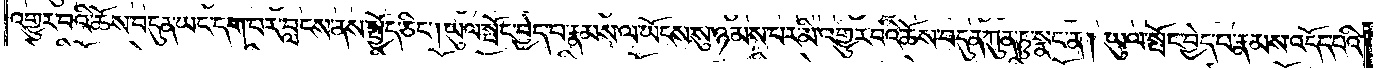འགྱུར་བའི་ཆོས་བདུན་ཡང་དག་པར་བླངས་ནས་སྤྱོད་ཅིང༌། ཡུལ་སྤོང་བྱེད་པ་རྣམས་ལ་ཡོངས་སུ་ཉམ་པར་མི་འགྱུར་བའི་ཆོས་བདུན་ཀུན་ཏུ་སྣང་ན། ཡུལ་སྤོང་བྱེད་པ་རྣམས་འདོད་པའི་
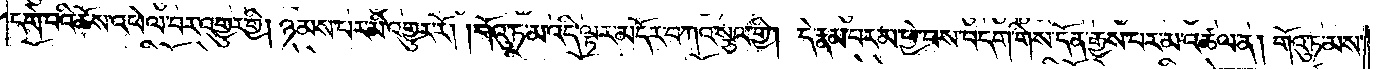དགེ་བའི་ཆོས་འཕེལ་བར་འགྱུར་གྱི། ཉམས་པར་མི་འགྱུར་རོ། །གོའུ་ཏ་མ་འདི་ལྟར་མདོར་བཀའ་སྩལ་གྱི། དེ་རྣམ་པར་མ་ཕྱེ་བས་བདག་གིས་དོན་རྒྱས་པར་མ་འཚལ་ན། གོའུ་ཏ་མས་
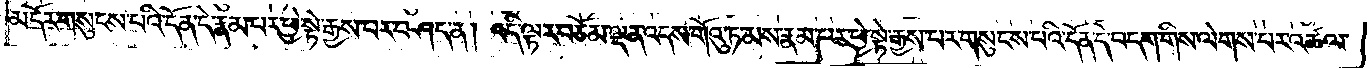མདོར་གསུངས་པའི་དོན་དེ་རྣམ་པར་ཕྱེ་སྟེ་རྒྱས་པར་བཤད་ན། འདི་ལྟར་བཅོམ་ལྡན་འདས་གོའུ་ཏ་མས་རྣམ་པར་ཕྱེ་སྟེ་རྒྱས་པར་གསུངས་པའི་དོན་དེ་བདག་གིས་ལེགས་པར་འཚལ་
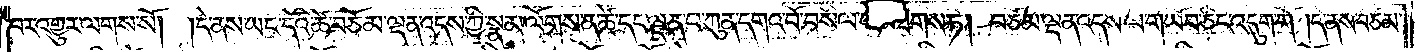པར་འགྱུར་ལགས་སོ། །དེ་ནས་ཡང་དེའི་ཚེ་བཅོམ་ལྡན་འདས་ཀྱི་སྣམ་ལོགས་ན་ཚེ་དང་ལྡན་པ་ཀུན་དགའ་བོ་བསིལ་(ཡབ་ཐོགས་)ཏེ། བཅོམ་ལྡན་འདས་ལ་གཡོབ་ཅིང་འདུག་གོ །དེ་ནས་བཅོམ་
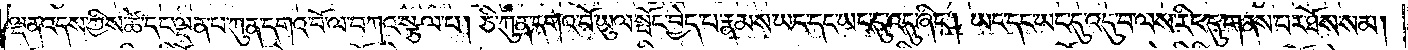ལྡན་འདས་ཀྱིས་ཚེ་དང་ལྡན་པ་ཀུན་དགའ་བོ་ལ་བཀའ་སྩལ་པ། ཅི་ཀུན་དགའ་བོ་ཡུལ་སྤོང་བྱེད་པ་རྣམས་ཡང་དང་ཡང་དུ་འདུ་ཞིང༌། ཡང་དང་ཡང་དུ་འདུ་བ་ལས་རིང་དུ་གནས་པར་ཐོས་སམ།
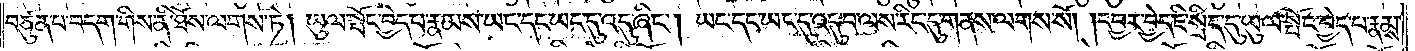བཙུན་པ་བདག་གིས་ནི་ཐོས་ལགས་ཏེ། ཡུལ་སྤོང་བྱེད་པ་རྣམས་ཡང་དང་ཡང་དུ་འདུ་ཞིང༌། ཡང་དང་ཡང་དུ་འདུ་བ་ལས་རིང་དུ་གནས་ལགས་སོ། །དབྱར་བྱེད་ཇི་སྲིད་དུ་ཡུལ་སྤོང་བྱེད་པ་རྣམས་
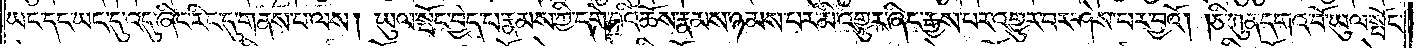ཡང་དང་ཡང་དུ་འདུ་ཞིང་རིང་དུ་གནས་པ་ལས། ཡུལ་སྤོང་བྱེད་པ་རྣམས་ཀྱི་དགེ་བའི་ཆོས་རྣམས་ཉམས་པར་མི་འགྱུར་ཞིང་རྒྱས་པར་འགྱུར་པར་ཤེས་པར་བྱའོ། །ཅི་ཀུན་དགའ་བོ་ཡུལ་སྤོང་
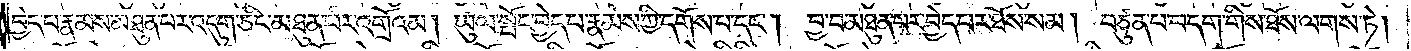བྱེད་པ་རྣམས་མཐུན་པར་འདུག་ཅིང་མཐུན་པར་འགྲོའམ། ཡུལ་སྤོང་བྱེད་པ་རྣམས་ཀྱི་དགོས་པ་དང༌། བྱ་བ་མཐུན་པར་བྱེད་པར་ཐོས་སམ། བཙུན་པ་བདག་གིས་ཐོས་ལགས་ཏེ།
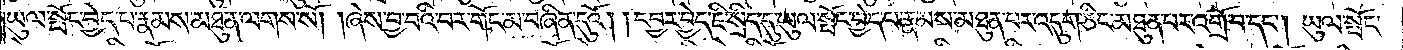ཡུལ་སྤོང་བྱེད་པ་རྣམས་མཐུན་ལགས་སོ། །ཞེས་བྱ་བའི་བར་གོང་མ་བཞིན་དུའོ། །དབྱར་བྱེད་ཇི་སྲིད་དུ་ཡུལ་སྤོང་བྱེད་པ་རྣམས་མཐུན་པར་འདུག་ཅིང་མཐུན་པར་འགྲོ་བ་དང༌། ཡུལ་སྤོང་
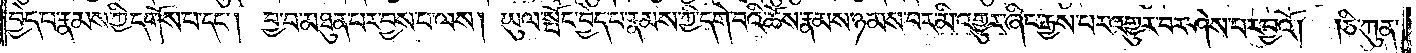བྱེད་པ་རྣམས་ཀྱི་དགོས་པ་དང༌། བྱ་བ་མཐུན་པར་བྱས་པ་ལས། ཡུལ་སྤོང་བྱེད་པ་རྣམས་ཀྱི་དགེ་བའི་ཆོས་རྣམས་ཉམས་པར་མི་འགྱུར་ཞིང་རྒྱས་པར་འགྱུར་བར་ཤེས་པར་བྱའོ། །ཅི་ཀུན་
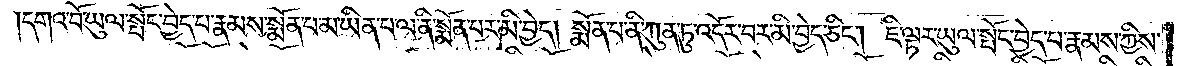དགའ་བོ་ཡུལ་སྤོང་བྱེད་པ་རྣམས་སྨོན་པ་མ་ཡིན་པ་ལ་ནི་སྨོན་པར་མི་བྱེད། སྨོན་པ་ནི་ཀུན་ཏུ་འདོར་བར་མི་བྱེད་ཅིང༌། ཇི་ལྟར་ཡུལ་སྤོང་བྱེད་པ་རྣམས་ཀྱིས་
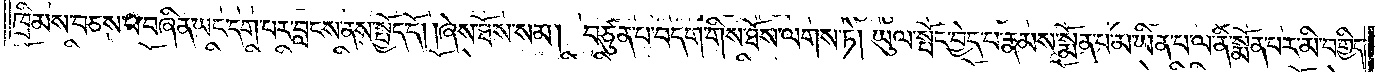ཁྲིམས་བཅས་པ་བཞིན་ཡང་དག་པར་བླངས་ནས་སྤྱོད་དོ། །ཞེས་ཐོས་སམ། བཙུན་པ་བདག་གིས་ཐོས་ལགས་ཏེ། ཡུལ་སྤོང་བྱེད་པ་རྣམས་སྨོན་པ་མ་ཡིན་པ་ལ་ནི་སྨོན་པར་མི་བགྱིད་
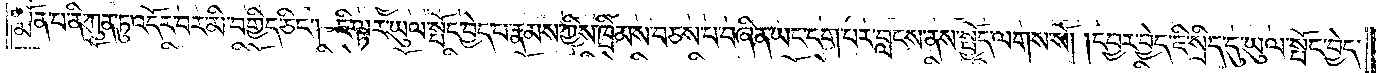སྨོན་པ་ནི་ཀུན་ཏུ་འདོར་བར་མི་བགྱིད་ཅིང༌། ཇི་ལྟར་ཡུལ་སྤོང་བྱེད་པ་རྣམས་ཀྱིས་ཁྲིམས་བཅས་པ་བཞིན་ཡང་དག་པར་བླངས་ནས་སྤྱོད་ལགས་སོ། །དབྱར་བྱེད་ཇི་སྲིད་དུ་ཡུལ་སྤོང་བྱེད་
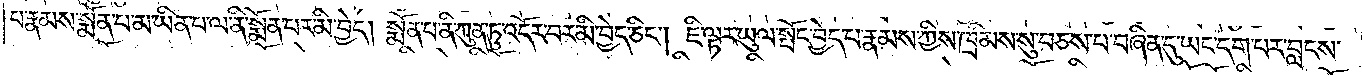པ་རྣམས་སྨོན་པ་མ་ཡིན་པ་ལ་ནི་སྨོན་པར་མི་བྱེད། སྨོན་པ་ནི་ཀུན་ཏུ་འདོར་བར་མི་བྱེད་ཅིང༌། ཇི་ལྟར་ཡུལ་སྤོང་བྱེད་པ་རྣམས་ཀྱིས་ཁྲིམས་སུ་བཅས་པ་བཞིན་དུ་ཡང་དག་པར་བླངས་
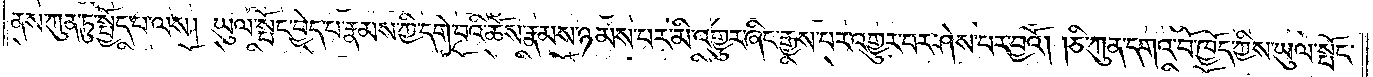ནས་ཀུན་ཏུ་སྤྱོད་པ་ལས། ཡུལ་སྤོང་བྱེད་པ་རྣམས་ཀྱི་དགེ་བའི་ཆོས་རྣམས་ཉམས་པར་མི་འགྱུར་ཞིང་རྒྱས་པར་འགྱུར་བར་ཤེས་པར་བྱའོ། །ཅི་ཀུན་དགའ་བོ་ཁྱོད་ཀྱིས་ཡུལ་སྤོང་
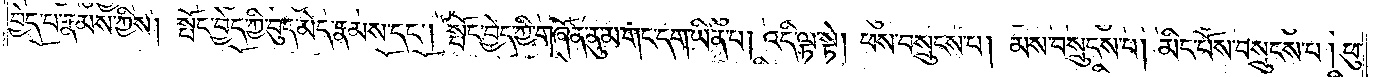བྱེད་པ་རྣམས་ཀྱིས། སྤོང་བྱེད་ཀྱི་བུད་མེད་རྣམས་དང༌། སྤོང་བྱེད་ཀྱི་གཞོན་ནུ་མ་གང་དག་ཡིན་པ། འདི་ལྟ་སྟེ། ཕས་བསྲུངས་པ། མས་བསྲུངས་པ། མིང་པོས་བསྲུངས་པ། ཕུ་
